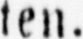ten.
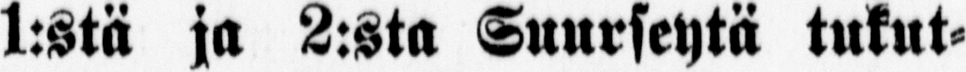1:stä ja 2:sta Suurseytä tukut-
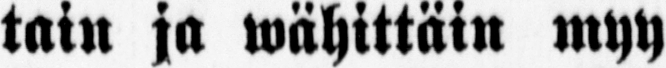tain ja wähittäin myy
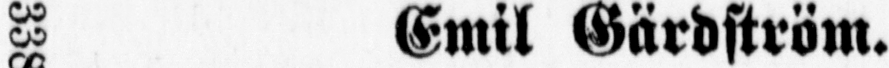338 Emil Gärdström.
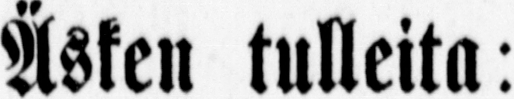Äsken tulleita:
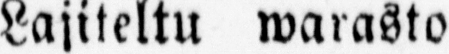Lajiteltu warasto
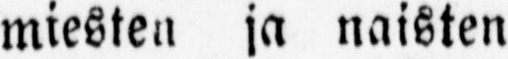miesten ja naisten
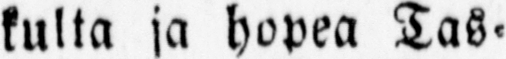kulta ja hopea Tas-
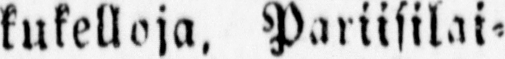kukelloja. Pariisilai-
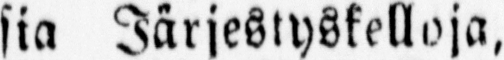sia Järjestyskelloja,
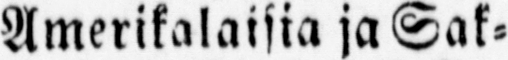Amerikalaisia ja Sak-
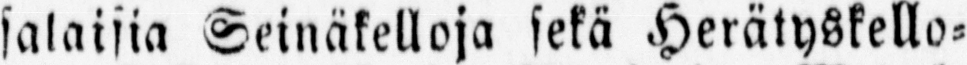salaisia Seinäkelloja sekä Herätyskello-
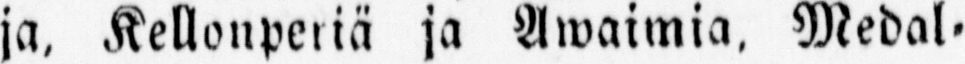ja, Kellonperiä ja Awaimia, Medal-
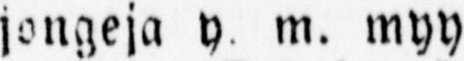jongeja y. m. myy
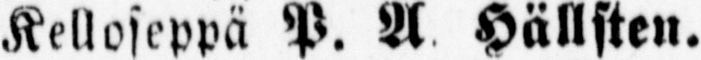Kelloseppä P. A. Hällsten.
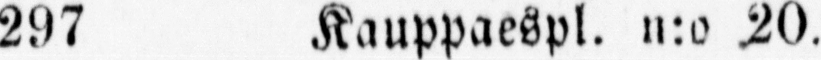297 Kauppaespl. n:o 20.
